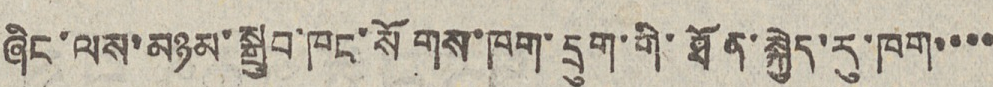ཞིང་ལས་མཉམ་སྒྲུབ་ཁང་སོགས་ཁག་དྲུག་གི་ཐོན་སྐྱེད་རུ་ཁག་་་་
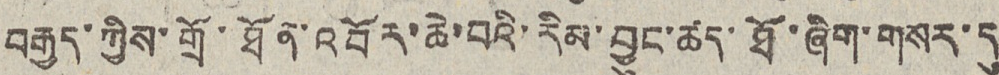བརྒྱད་ཀྱིས་གྲོ་ཐོན་འབོར་ཆེ་བའི་རིམ་བྱུང་ཚད་ཐོ་ཞིག་གསར་དུ
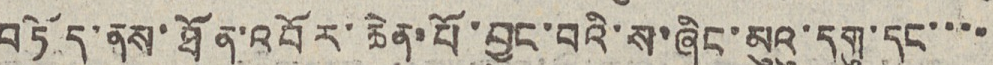བཏོད་ནས་ཐོན་འབོར་ཆེན་པོ་བྱུང་བའི་ས་ཞིང་མུའུ་དགུ་དང་་་་
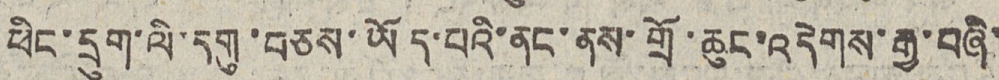ཕིང་དྲུག་ལི་དགུ་བཅས་ཡོད་པའི་ནང་ནས་གྲོ་ཆུང་འདེགས་རྒྱ་བཞི་
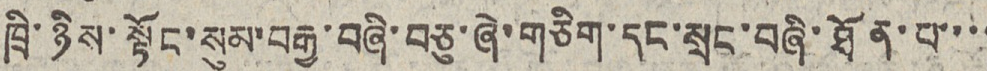ཁྲི་ཉིས་སྟོང་སུམ་བརྒྱ་བཞི་བཅུ་ཞེ་གཅིག་དང་སྲང་བཞི་ཐོན་པ་་་་
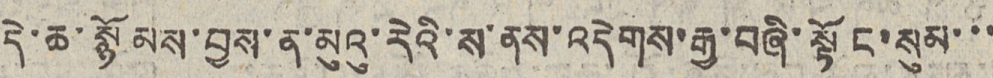དེ་ཆ་སྙོམས་བྱས་ན་མུའུ་རེའི་ས་ནས་འདེགས་རྒྱ་བཞི་སྟོང་སུམ་་་
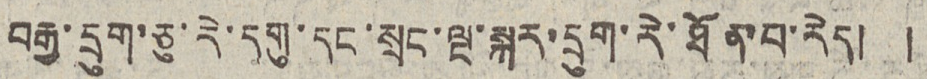བརྒྱ་དྲུག་ཅུ་རེ་དགུ་དང་སྲང་ལྔ་སྐར་དྲུག་རེ་ཐོན་པ་རེད། །
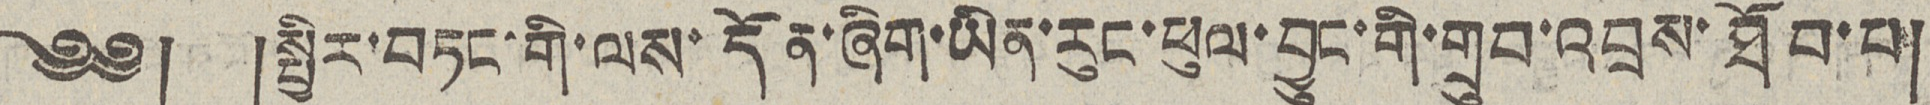༄༅། །སྤྱིར་བཏང་གི་ལས་དོན་ཞིག་ཡིན་རུང་ཕུལ་བྱུང་གི་གྲུབ་འབྲས་ཐོབ་པ།
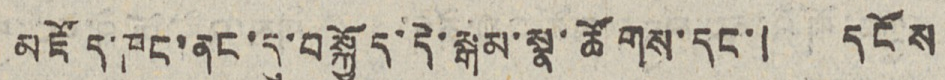མཛོད་ཁང་ནང་དུ་བསྐྱོད་དེ་སྒམ་སྣ་ཚོགས་དང་། དངོས
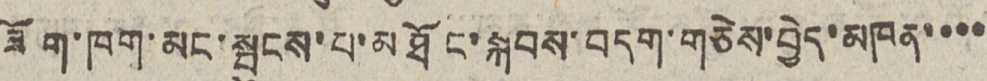ཟོག་ཁག་མང་སྦུངས་པ་མཐོང་སྐབས་བདག་གཅེས་བྱེད་མཁན་་་་
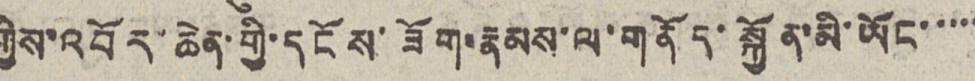གྱིས་འབོར་ཆེན་གྱི་དངོས་ཟོག་རྣམས་ལ་གནོད་སྐྱོན་མི་ཡོང་་་་་
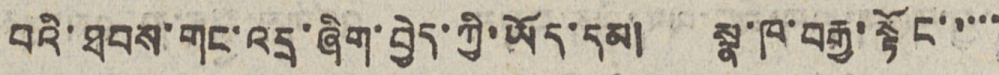བའི་ཐབས་གང་འདྲ་ཞིག་བྱེད་ཀྱི་ཡོད་དམ། སྣ་ཁ་བརྒྱ་སྟོང་་་་་
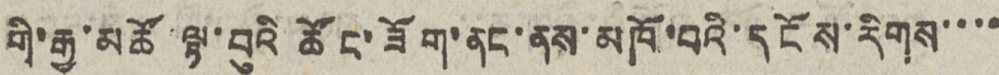གི་རྒྱ་མཚོ་ལྟ་བུའི ཚོང་ཟོག་ནང་ནས་མཁོ་བའི་དངོས་རིགས་་་་
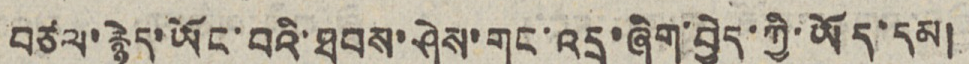བཙལ་རྙེད་ཡོང་བའི་ཐབས་ཤེས་གང་འདྲ་ཞིག་བྱེད་ཀྱི་ཡོད་དམ།
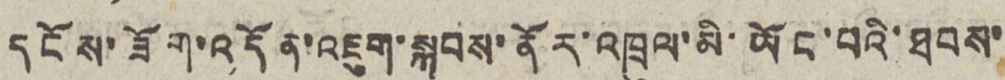དངོས་ཟོག་འདོན་འཇུག་སྐབས་ནོར་འཁྲུལ་མི་ཡོང་བའི་ཐབས་
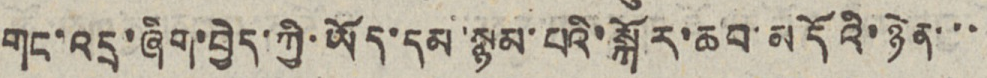གང་འདྲ་ཞིག་བྱེད་ཀྱི་ཡོད་དམ་སྙམ་པའི་སྐོར་ཆབ་མདོའི་ཉེན་་་
